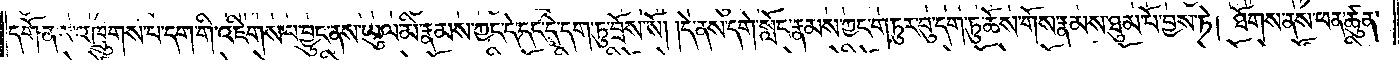དགོན་པ་འཁྲུགས་པ་དག་གི་འཇིགས་པ་བྱུང་ནས་ཡུལ་མི་རྣམས་ཀྱང་དེ་དང་དེ་དག་ཏུ་བྲོས་སོ། །དེ་ནས་དགེ་སློང་རྣམས་ཀྱང་གཏུར་བུ་དག་ཏུ་ཆོས་གོས་རྣམས་ཐུམ་པོ་བྱས་ཏེ། ཐོགས་ནས་ཕན་ཚུན་
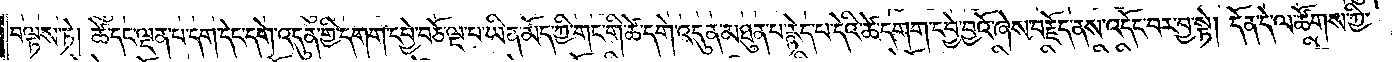བལྟས་ཏེ། ཚེ་དང་ལྡན་པ་དག་དེང་དགེ་འདུན་གྱི་དགག་དབྱེ་བཅོ་ལྔ་པ་ཡིན་མོད་ཀྱི་གང་གི་ཚེ་དགེ་འདུན་མཐུན་པ་རྙེད་པ་དེའི་ཚེ་དགག་དབྱེ་བྱའོ་ཞེས་བརྗོད་ནས་འདོང་བར་བྱ་སྟེ། དོན་དེ་ལ་ཚོགས་ཀྱི་
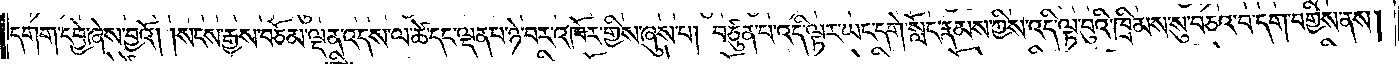དགག་དབྱེ་ཞེས་བྱའོ། །སངས་རྒྱས་བཅོམ་ལྡན་འདས་ལ་ཚེ་དང་ལྡན་པ་ཉེ་བར་འཁོར་གྱིས་ཞུས་པ། བཙུན་པ་འདི་ལྟར་ཡང་དགེ་སློང་རྣམས་ཀྱིས་འདི་ལྟ་བུའི་ཁྲིམས་སུ་བཅའ་བ་དག་བགྱིས་ནས།
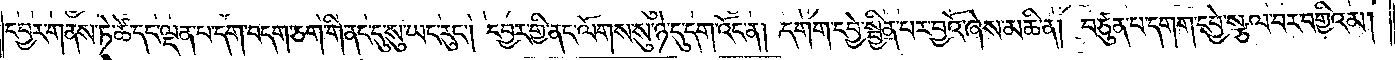དབྱར་གནས་ཏེ་ཚེ་དང་ལྡན་པ་དག་བདག་ཅག་གི་ནང་དུ་སུ་ཡང་རུང༌། དབྱར་གྱི་ནང་ལོགས་སུ་ཉེ་དུ་དག་འོང་ན། དགག་དབྱེ་སྦྱིན་པར་བྱའོ་ཞེས་མཆི་ན། བཙུན་པ་དགག་དབྱེ་སྩལ་བར་བགྱིའམ།
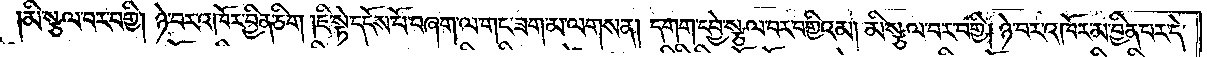མི་སྩལ་བར་བགྱི། ཉེ་བར་འཁོར་བྱིན་ཅིག །ཇི་སྟེ་དངོས་པོ་བཞག་ལ་གང་ཟག་མ་ལགས་ན། དགག་དབྱེ་སྩལ་བར་བགྱིའམ། མི་སྩལ་བར་བགྱི། ཉེ་བར་འཁོར་མ་བྱིན་པར་དེ་
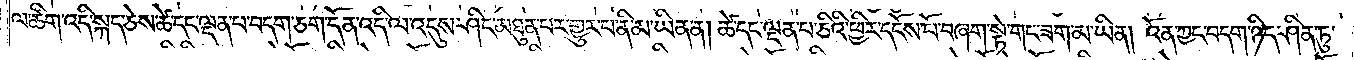ལ་ཚིག་འདི་སྐད་ཅེས་ཚེ་དང་ལྡན་པ་བདག་ཅག་དོན་འདི་ལ་འདུས་ཤིང་མཐུན་པར་གྱུར་པ་ནི་མ་ཡིན་ན། ཚེ་དང་ལྡན་པ་ཅིའི་ཕྱིར་དངོས་པོ་བཞག་སྟེ་གང་ཟག་མ་ཡིན། འོན་ཀྱང་བདག་ཉིད་ཤིན་ཏུ་
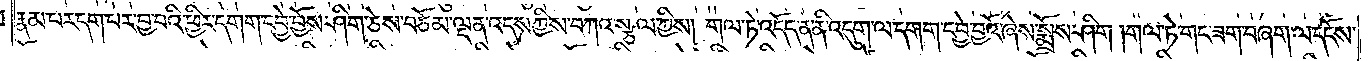རྣམ་པར་དག་པར་བྱ་བའི་ཕྱིར་དགག་དབྱེ་བྱོས་ཤིག་ཅེས་བཅོམ་ལྡན་འདས་ཀྱིས་བཀའ་སྩལ་ཀྱིས། གལ་ཏེ་འདོད་ན་ནི་འདུག་ལ་དགག་དབྱེ་བྱའོ་ཞེས་སྨྲོས་ཤིག །གལ་ཏེ་གང་ཟག་བཞག་ལ་དངོས་
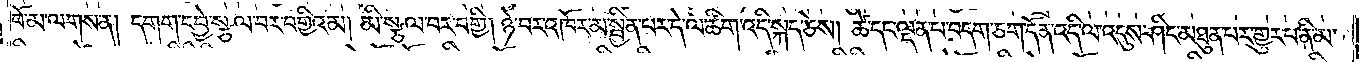པོ་མ་ལགས་ན། དགག་དབྱེ་སྩལ་བར་བགྱིའམ། མི་སྩལ་བར་བགྱི། ཉེ་བར་འཁོར་མ་སྦྱིན་པར་དེ་ལ་ཚིག་འདི་སྐད་ཅེས། ཚེ་དང་ལྡན་པ་བདག་ཅག་དོན་འདི་ལ་འདུས་ཤིང་མཐུན་པར་གྱུར་པ་ནི་མ་
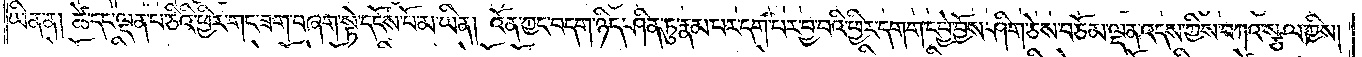ཡིན་ན། ཚེ་དང་ལྡན་པ་ཅིའི་ཕྱིར་གང་ཟག་བཞག་སྟེ་དངོས་པོ་མ་ཡིན། འོན་ཀྱང་བདག་ཉིད་ཤིན་ཏུ་རྣམ་པར་དག་པར་བྱ་བའི་ཕྱིར་དགག་དབྱེ་བྱོས་ཤིག་ཅེས་བཅོམ་ལྡན་འདས་ཀྱིས་བཀའ་སྩལ་ཀྱིས།
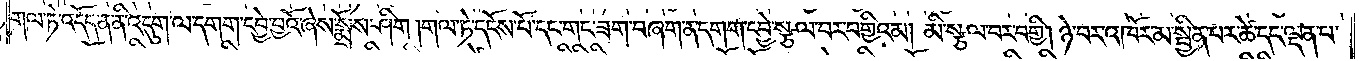གལ་ཏེ་འདོད་ན་ནི་འདུག་ལ་དགག་དབྱེ་བྱའོ་ཞེས་སྨྲོས་ཤིག །གལ་ཏེ་དངོས་པོ་དང་གང་ཟག་བཞག་ན་དགག་དབྱེ་སྩལ་བར་བགྱིའམ། མི་སྩལ་བར་བགྱི། ཉེ་བར་འཁོར་མ་སྦྱིན་པར་ཚེ་དང་ལྡན་པ་
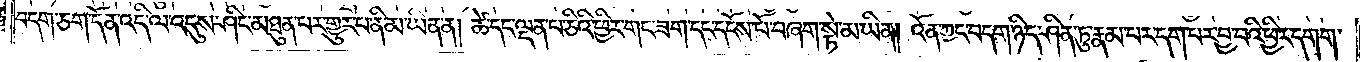བདག་ཅག་དོན་འདི་ལ་འདུས་ཤིང་མཐུན་པར་གྱུར་པ་ནི་མ་ཡིན་ན། ཚེ་དང་ལྡན་པ་ཅིའི་ཕྱིར་གང་ཟག་དང་དངོས་པོ་བཞག་སྟེ་མ་ཡིན། འོན་ཀྱང་བདག་ཉིད་ཤིན་ཏུ་རྣམ་པར་དག་པར་བྱ་བའི་ཕྱིར་དགག་
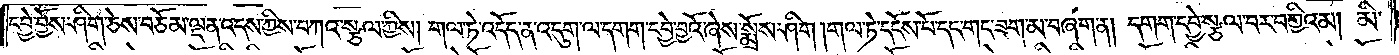དབྱེ་བྱོས་ཤིག་ཅེས་བཅོམ་ལྡན་འདས་ཀྱིས་བཀའ་སྩལ་ཀྱིས། གལ་ཏེ་འདོད་ན་འདུག་ལ་དགག་དབྱེ་བྱའོ་ཞེས་སྨྲོས་ཤིག །གལ་ཏེ་དངོས་པོ་དང་གང་ཟག་མ་བཞག་ན། དགག་དབྱེ་སྩལ་བར་བགྱིའམ། མི་
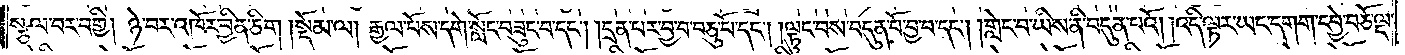སྩལ་བར་བགྱི། ཉེ་བར་འཁོར་བྱིན་ཅིག    །སྡོམ་ལ། རྒྱལ་པོས་དགེ་སློང་བཟུང་བ་དང༌། །དྲན་པར་བྱ་བ་བཅུ་པོ་དང༌། །ལྟུང་བས་བདུན་པོ་བྱ་བ་དང༌། །གླེང་བ་ཡིས་ནི་བདུན་པའོ། །འདི་ལྟར་ཡང་དགག་དབྱེ་བཅོ་ལྔ་
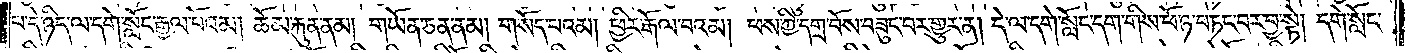པ་དེ་ཉིད་ལ་དགེ་སློང་རྒྱལ་པོའམ། ཆོམ་རྐུན་ནམ། གཡོན་ཅན་ནམ། གསོད་པའམ། ཕྱིར་རྒོལ་བའམ། ཕས་ཀྱི་དགྲ་བོས་བཟུང་བར་གྱུར་ན། དེ་ལ་དགེ་སློང་དག་གིས་ཕོ་ཉ་བཏང་བར་བྱ་སྟེ། དགེ་སློང་
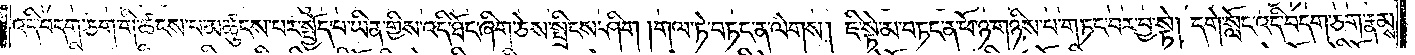འདི་བདག་ཅག་གི་ཚངས་པ་མཚུངས་པར་སྤྱོད་པ་ཡིན་གྱིས་འདི་ཐོང་ཞིག་ཅེས་སྤྲིངས་ཤིག །གལ་ཏེ་བཏང་ན་ལེགས། ཇི་སྟེ་མ་བཏང་ན་ཕོ་ཉ་གཉིས་པ་གཏང་བར་བྱ་སྟེ། དགེ་སློང་འདི་བདག་ཅག་རྣམས་
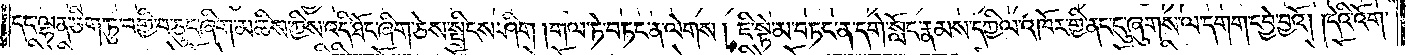དང་ལྷན་ཅིག་ཏུ་བགྱི་བ་ཅུང་ཞིག་མཆིས་ཀྱིས་འདི་ཐོང་ཞིག་ཅེས་སྤྲིངས་ཤིག །གལ་ཏེ་བཏང་ན་ལེགས། ཇི་སྟེ་མ་བཏང་ན་དགེ་སློང་རྣམས་དཀྱིལ་འཁོར་གྱི་ནང་དུ་ཞུགས་ལ་དགག་དབྱེ་བྱའོ། །དེའི་འོག་
